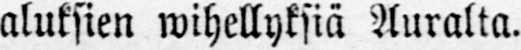aluksien wihellyksiä Auralta.
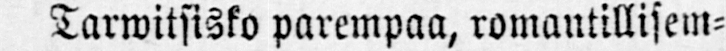Tarwitsisko parempaa, romantillisem-
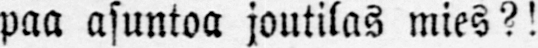paa asuntoa joutilas mies?!
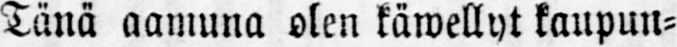Tänä aamuna olen käwellyt kaupun-
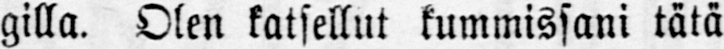gilla. Olen katsellut kummissani tätä
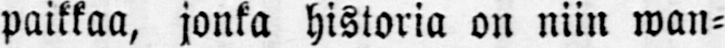paikkaa, jonka historia on niin wan-
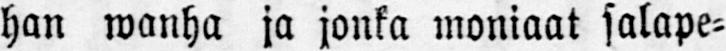han wanha ja jonka moniaat salape-
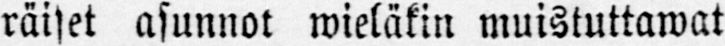räiset asunnot wieläkin muistuttawat
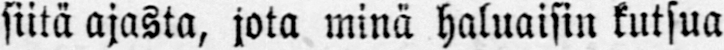siitä ajasta, jota minä haluaisin kutsua
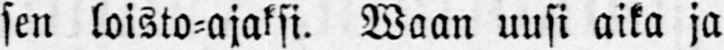sen loisto-ajaksi. Waan uusi aika ja
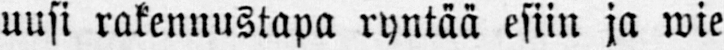uusi rakennustapa ryntää esiin ja wie
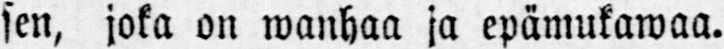sen, joka on wanhaa ja epämukawaa.
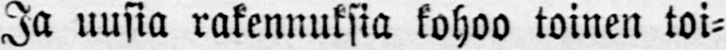Ja uusia rakennuksia kohoo toinen toi-
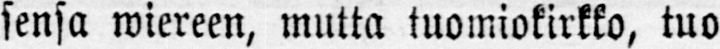sensa wiereen, mutta tuomiokirkko, tuo
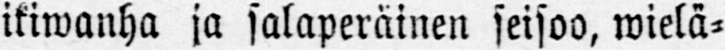ikiwanha ja salaperäinen seisoo, wielä-
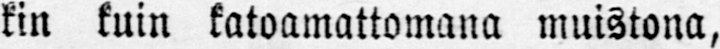kin kuin katoamattomana muistona,
